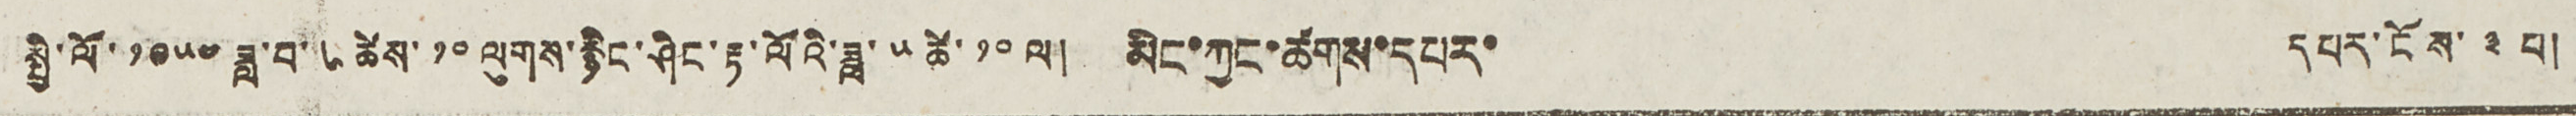སྤྱི་ལོ་ ༡༩༥༤ ཟླ་བ་ ༦ ཚེས་ ༡༠ ལུགས་རྙིང་ཤིང་རྟ་ལོའི་ཟླ་ ༥ ཚེ་ ༡༠ ལ། མིང་ཀྱང་ཚགས་དཔར་        དཔར་ངོས་ ༣ པ།
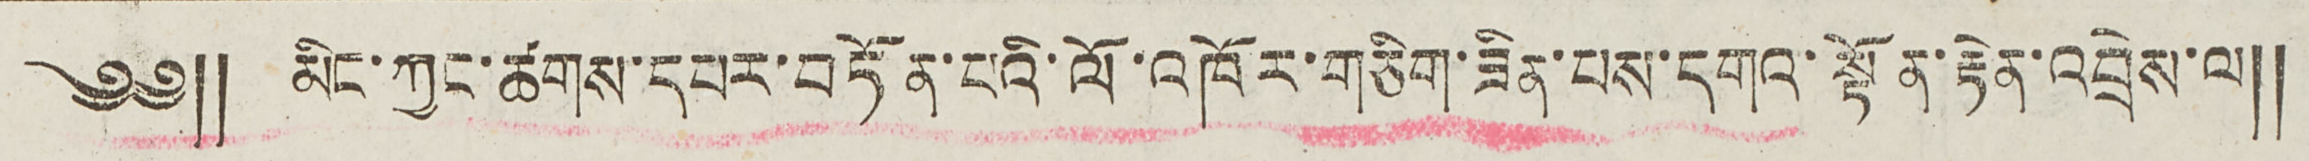༄༅༎ མིང་ཀྱང་ཚགས་དཔར་བཏོན་པའི་ལོ་འཁོར་གཅིག་ཟིན་པས་དགའ་སྟོན་རྟེན་འབྲེས་ལ༎
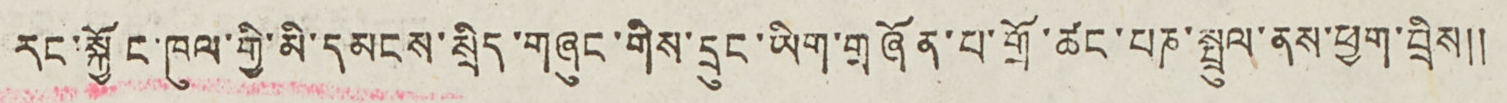རང་སྐྱོང་ཁུལ་གྱི་མི་དམངས་སྲིད་གཞུང་གིས་དྲུང་ཡིག་གཞོན་པ་གྲོ་ཚང་པཎ་སྤྲུལ་ནས་ཕྱག་བྲིས༎
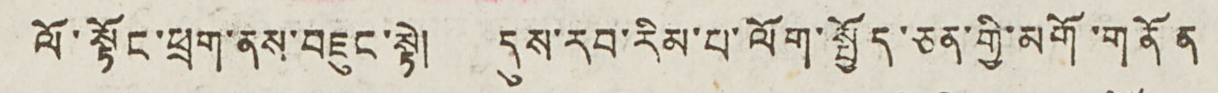ལོ་སྟོང་ཕྲག་ནས་བཇུང་སྟེ། དུས་རབ་རིམ་པ་ལོག་སྤྱོད་ཅན་གྱི་མགོ་གནོན
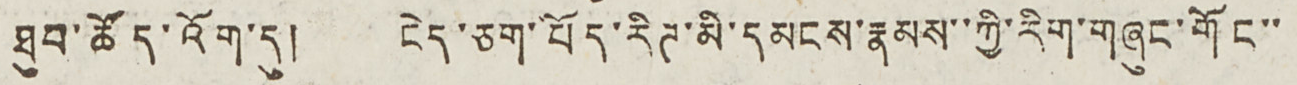ཐུབ་ཚོད་འོག་དུ། ངེད་ཅག་བོད་རིཊ་མི་དམངས་རྣམས་་ཀྱི་རིག་གཞུང་གོང་་
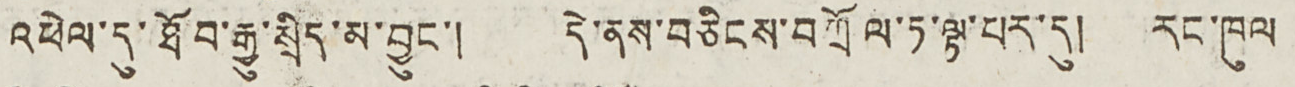འཕེལ་དུ་ཐོབ་རྒྱ་སྲིད་མ་བྱུང་། དེ་ནས་བཅིངས་བཀྲོལ་ཏ་ལྟ་པར་དུ། རང་ཁུལ
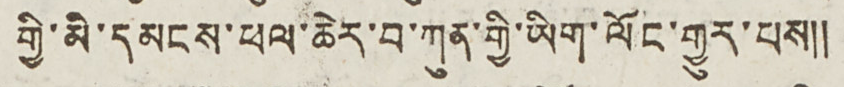གྱི་མི་དམངས་ཕལ་ཆེར་བ་ཀུན་གྱི་ཡིག་ལོང་གྱུར་པས༎
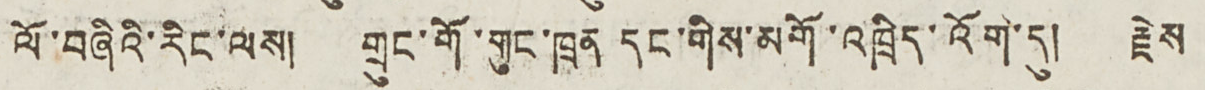ལོ་བཞིའི་རིང་ལས། གྲུང་གོ་གུང་ཁྲན དང་གིས་མགོ་འཁྲིད་འོག་དུ། རྗེས
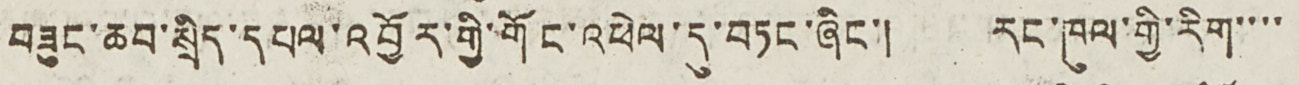བཟུང་ཆབ་སྲིད་དཔལ་འབྱོར་གྱི་གོང་འཕེལ་དུ་བཏང་ཞིང་། རང་ཁུལ་གྱི་རིག་་་་
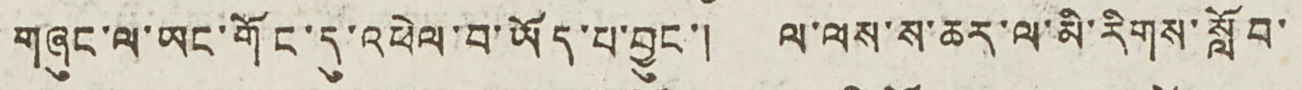གཞུང་ལ་ཡང་གོང་དུ་འཕེལ་བ་ཡོད་པ་བྱུང་། ལ་ལས་ས་ཆར་ལ་མི་རིགས་སློབ་
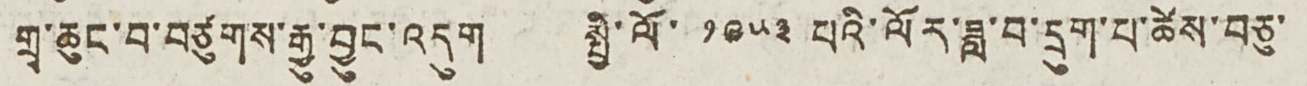གྲྭ་ཆུང་བ་བཙུགས་རྒྱུ་བྱུང་འདུག སྤྱི་ལོ་ ༡༩༥༣ པའི་ལོར་ཟླ་བ་དྲུག་པ་ཚེས་བཅུ་
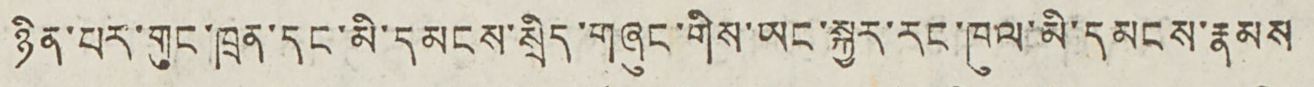ཉིན་པར་གུང་ཁྲན་དང་མི་དམངས་སྲིད་གཞུང་གིས་ཡང་སྐྱར་རང་ཁུལ་མི་དམངས་རྣམས
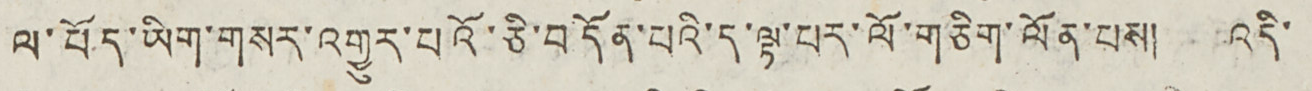ལ་བོད་ཡིག་གསར་འགྱུར་པའོ་ཅི་བདོན་པའི་ད་ལྟ་པར་ལོ་གཅིག་ལོན་པས། འདི་
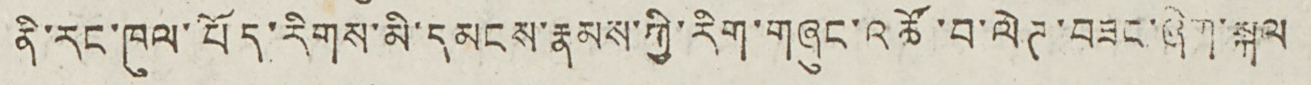ནི་རང་ཁུལ་བོད་རིགས་མི་དམངས་རྣམས་ཀྱི་རིག་གཞུང་འཚོ་བ་ལེཊ་བཟང་ཞིག་སྐལ
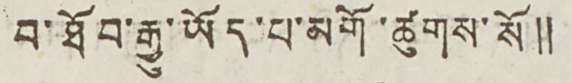བ་ཐོབ་རྒྱུ་ཡོད་པ་མགོ་ཚུགས་སོ ༎
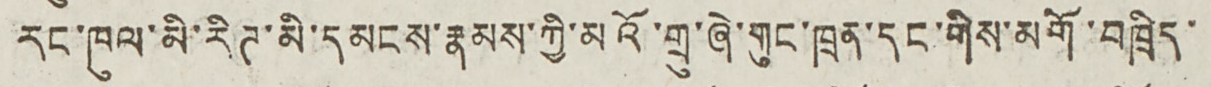རང་ཁུལ་མི་རིཊ་མི་དམངས་རྣམས་ཀྱི་མའོ་གྲུ་ཞེ་གུང་ཁྲན་དང་གིས་མགོ་བཁྲིད་
